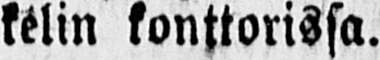kelin konttorissa.
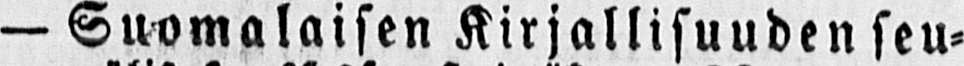— Suomalaisen Kirjallisuuden seu-
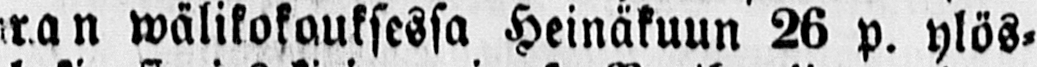ran wälikokouksessa Heinäkuun 26 p. ylös-
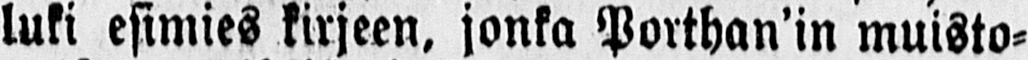luki esimies kirjeen, jonka Porthan'in muisto-
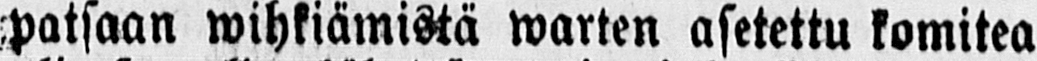patsaan wihkiämistä warten asetettu komitea
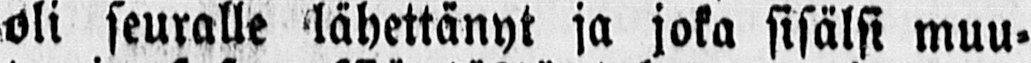oli seuralle lähettänyt ja joka sisälsi muu-
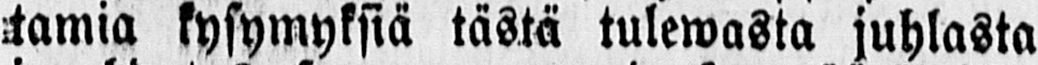tamia kysymyksiä tästä tulewasta juhlasta
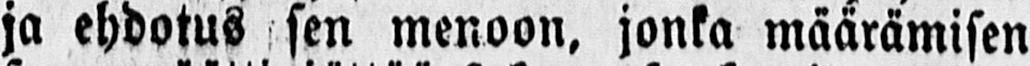ja ehdotus sen menoon, jonka määrämisen
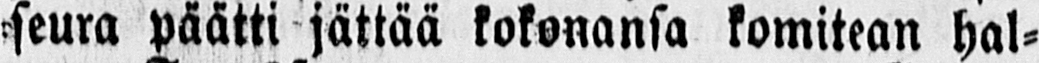seura päätti jättää kokonansa komitean hal-
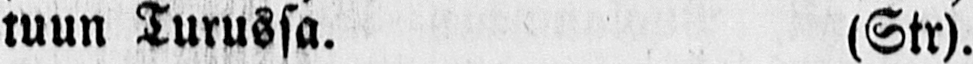tuun Turussa. (Str).
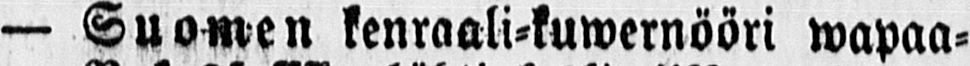— Suomen kenraali-kuwernööri wapaa-
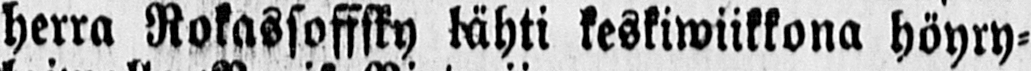herra Rokassoffsky lähti keskiwiikkona höyry-
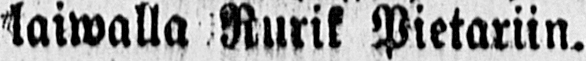laiwalla Rurik Pietariin.
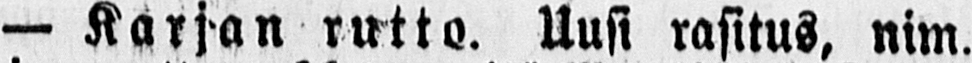— Karjan rutto. Uusi rasitus, nim.
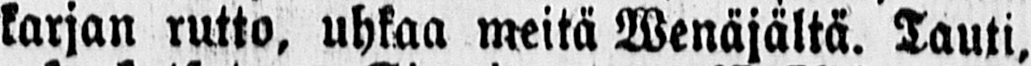karjan rutto, uhkaa meitä Wenäjältä. Tauti,
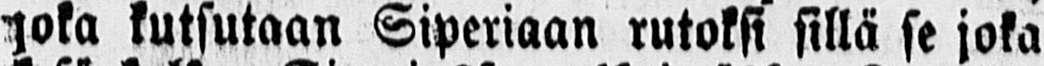loka kutsutaan Siperiaan rutoksi sillä se joka
